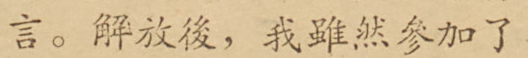言。解放後，我雖然參加了
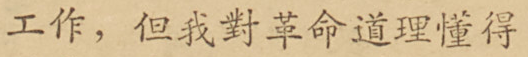工作，但我對革命道理懂得
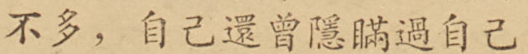不多，自己還曾隱瞞過自己
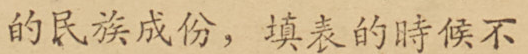的民族成份，填表的時候不
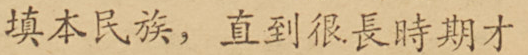填本民族，直到很長時期才
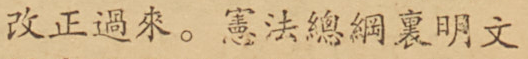改正過來。憲法總綱裏明文
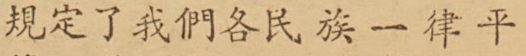規定了我們各民族一律平
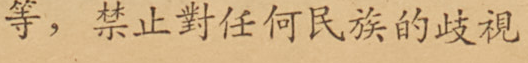等，禁止對任何民族的歧視
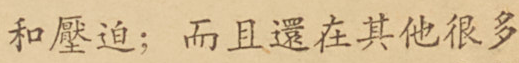和壓迫；而且還在其他很多
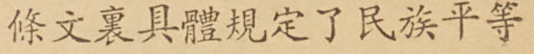條文裏具體規定了民族平等
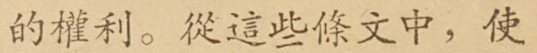的權利。從這些條文中，使
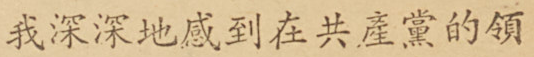我深深地感到在共產黨的領
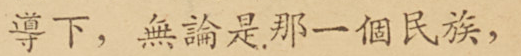導下，無論是那一各民族，
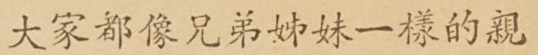大家都像兄弟姊妹一樣的親
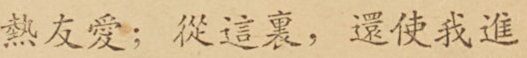熱友愛；從這裏，還使我進
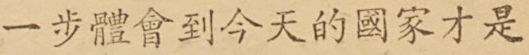一步體會到今天的國家才是
